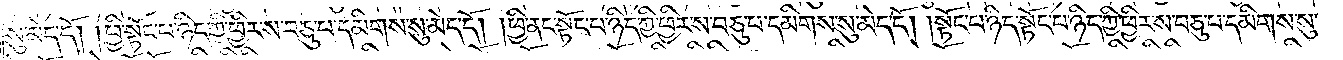སུ་མེད་དོ། །ཕྱི་སྟོང་པ་ཉིད་ཀྱི་ཕྱིར་ས་བཅུ་པ་དམིགས་སུ་མེད་དོ། །ཕྱི་ནང་སྟོང་པ་ཉིད་ཀྱི་ཕྱིར་ས་བཅུ་པ་དམིགས་སུ་མེད་དོ། །སྟོང་པ་ཉིད་སྟོང་པ་ཉིད་ཀྱི་ཕྱིར་ས་བཅུ་པ་དམིགས་སུ་
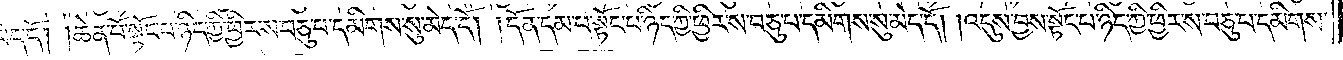མེད་དོ། །ཆེན་པོ་སྟོང་པ་ཉིད་ཀྱི་ཕྱིར་ས་བཅུ་པ་དམིགས་སུ་མེད་དོ། །དོན་དམ་པ་སྟོང་པ་ཉིད་ཀྱི་ཕྱིར་ས་བཅུ་པ་དམིགས་སུ་མེད་དོ། །འདུས་བྱས་སྟོང་པ་ཉིད་ཀྱི་ཕྱིར་ས་བཅུ་པ་དམིགས་
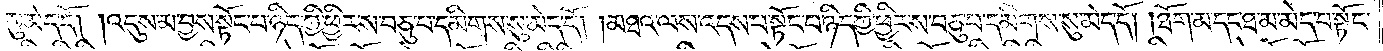སུ་མེད་དོ། །འདུས་མ་བྱས་སྟོང་པ་ཉིད་ཀྱི་ཕྱིར་ས་བཅུ་པ་དམིགས་སུ་མེད་དོ། །མཐའ་ལས་འདས་པ་སྟོང་པ་ཉིད་ཀྱི་ཕྱིར་ས་བཅུ་པ་དམིགས་སུ་མེད་དོ། །ཐོག་མ་དང་ཐ་མ་མེད་པ་སྟོང་
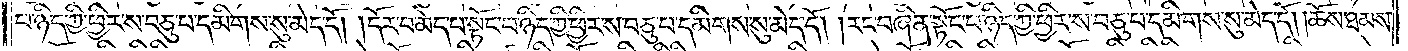པ་ཉིད་ཀྱི་ཕྱིར་ས་བཅུ་པ་དམིགས་སུ་མེད་དོ། །དོར་བ་མེད་པ་སྟོང་པ་ཉིད་ཀྱི་ཕྱིར་ས་བཅུ་པ་དམིགས་སུ་མེད་དོ། །རང་བཞིན་སྟོང་པ་ཉིད་ཀྱི་ཕྱིར་ས་བཅུ་པ་དམིགས་སུ་མེད་དོ། །ཆོས་ཐམས་
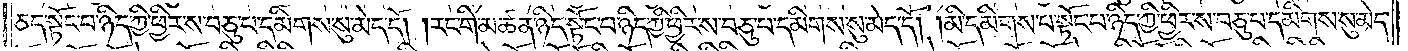ཅད་སྟོང་པ་ཉིད་ཀྱི་ཕྱིར་ས་བཅུ་པ་དམིགས་སུ་མེད་དོ། །རང་གི་མཚན་ཉིད་སྟོང་པ་ཉིད་ཀྱི་ཕྱིར་ས་བཅུ་པ་དམིགས་སུ་མེད་དོ། །མི་དམིགས་པ་སྟོང་པ་ཉིད་ཀྱི་ཕྱིར་ས་བཅུ་པ་དམིགས་སུ་མེད་
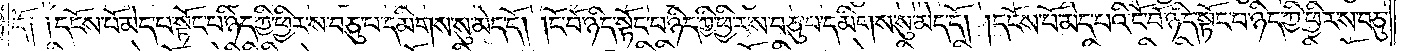དོ། །དངོས་པོ་མེད་པ་སྟོང་པ་ཉིད་ཀྱི་ཕྱིར་ས་བཅུ་པ་དམིགས་སུ་མེད་དོ། །ངོ་བོ་ཉིད་སྟོང་པ་ཉིད་ཀྱི་ཕྱིར་ས་བཅུ་པ་དམིགས་སུ་མེད་དོ། །དངོས་པ་མེད་པའི་ངོ་བོ་ཉིད་སྟོང་པ་ཉིད་ཀྱི་ཕྱིར་ས་བཅུ་
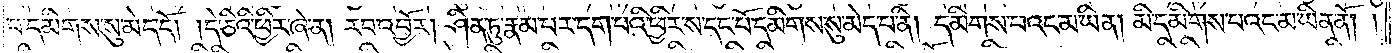པ་དམིགས་སུ་མེད་དོ། །དེ་ཅིའི་ཕྱིར་ཞེ་ན། རབ་འབྱོར། ཤིན་ཏུ་རྣམ་པར་དག་པའི་ཕྱིར་ས་དང་པོ་དམིགས་སུ་མེད་པ་ནི། དམིགས་པ་འང་མ་ཡིན། མི་དམིགས་པའང་མ་ཡིན་ནོ། །
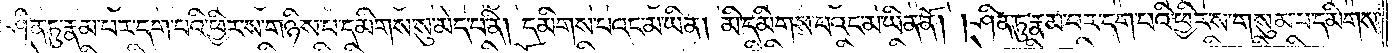ཤིན་ཏུ་རྣམ་པར་དག་པའི་ཕྱིར་ས་གཉིས་པ་དམིགས་སུ་མེད་པ་ནི། དམིགས་པ་འང་མ་ཡིན། མི་དམིགས་པའང་མ་ཡིན་ནོ། །ཤིན་ཏུ་རྣམ་པར་དག་པའི་ཕྱིར་ས་གསུམ་པ་དམིགས་
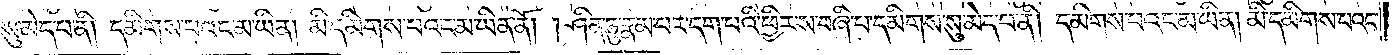སུ་མེད་པ་ནི། དམིགས་པའང་མ་ཡིན། མི་དམིགས་པའང་མ་ཡིན་ནོ། །ཤིན་ཏུ་རྣམ་པར་དག་པའི་ཕྱིར་ས་བཞི་པ་དམིགས་སུ་མེད་པ་ནི། དམིགས་པའང་མ་ཡིན། མི་དམིགས་པའང་
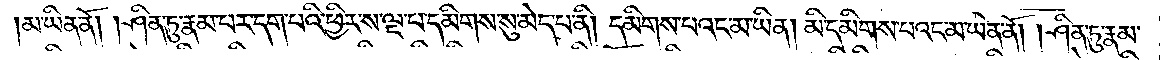མ་ཡིན་ནོ། །ཤིན་ཏུ་རྣམ་པར་དག་པའི་ཕྱིར་ས་ལྔ་པ་དམིགས་སུ་མེད་པ་ནི། དམིགས་པའང་མ་ཡིན། མི་དམིགས་པའང་མ་ཡིན་ནོ། །ཤིན་ཏུ་རྣམ་
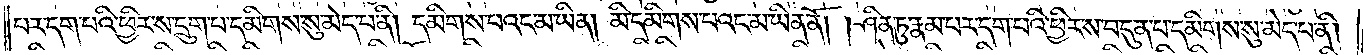པར་དག་པའི་ཕྱིར་ས་དྲུག་པ་དམིགས་སུ་མེད་པ་ནི། དམིགས་པའང་མ་ཡིན། མི་དམིགས་པའང་མ་ཡིན་ནོ། །ཤིན་ཏུ་རྣམ་པར་དག་པའི་ཕྱིར་ས་བདུན་པ་དམིགས་སུ་མེད་པ་ནི།
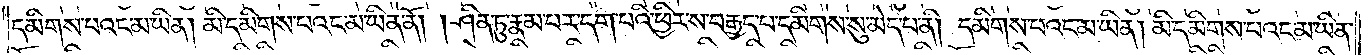དམིགས་པའང་མ་ཡིན། མི་དམིགས་པའང་མ་ཡིན་ནོ། །ཤིན་ཏུ་རྣམ་པར་དག་པའི་ཕྱིར་ས་བརྒྱད་པ་དམིགས་སུ་མེད་པ་ནི། དམིགས་པའང་མ་ཡིན། མི་དམིགས་པའང་མ་ཡིན།
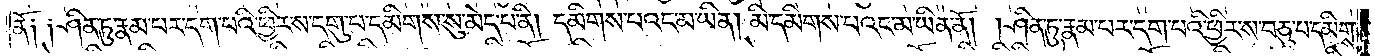ནོ། །ཤིན་ཏུ་རྣམ་པར་དག་པའི་ཕྱིར་ས་དགུ་པ་དམིགས་སུ་མེད་པ་ནི། དམིགས་པའང་མ་ཡིན། མི་དམིགས་པའང་མ་ཡིན་ནོ། །ཤིན་ཏུ་རྣམ་པར་དག་པའི་ཕྱིར་ས་བཅུ་པ་དམིགས་
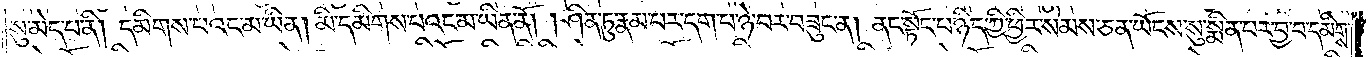སུ་མེད་པ་ནི། དམིགས་པའང་མ་ཡིན། མི་དམིགས་པའང་མ་ཡིན་ནོ། །ཤིན་ཏུ་རྣམ་པར་དག་པ་ཉེ་བར་བཟུང་ན། ནང་སྟོང་པ་ཉིད་ཀྱི་ཕྱིར་སེམས་ཅན་ཡོངས་སུ་སྨིན་པར་བྱ་བ་དམིགས་
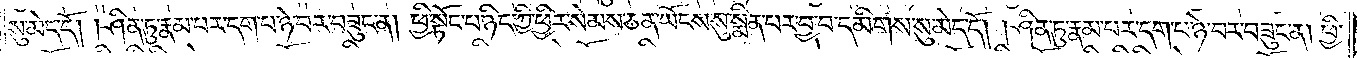སུ་མེད་དོ། །ཤིན་ཏུ་རྣམ་པར་དག་པ་ཉེ་བར་བཟུང་ན། ཕྱི་སྟོང་པ་ཉིད་ཀྱི་ཕྱིར་སེམས་ཅན་ཡོངས་སུ་སྨིན་པར་བྱ་བ་དམིགས་སུ་མེད་དོ། །ཤིན་ཏུ་རྣམ་པར་དག་པ་ཉེ་བར་བཟུང་ན། ཕྱི་
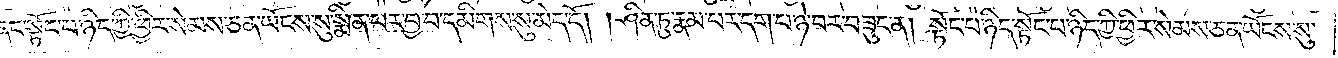ནང་སྟོང་པ་ཉིད་ཀྱི་ཕྱིར་སེམས་ཅན་ཡོངས་སུ་སྨིན་པར་བྱ་བ་དམིགས་སུ་མེད་དོ། །ཤིན་ཏུ་རྣམ་པར་དག་པ་ཉེ་བར་བཟུང་ན། སྟོང་པ་ཉིད་སྟོང་པ་ཉིད་ཀྱི་ཕྱིར་སེམས་ཅན་ཡོངས་སུ་
